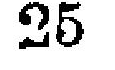25
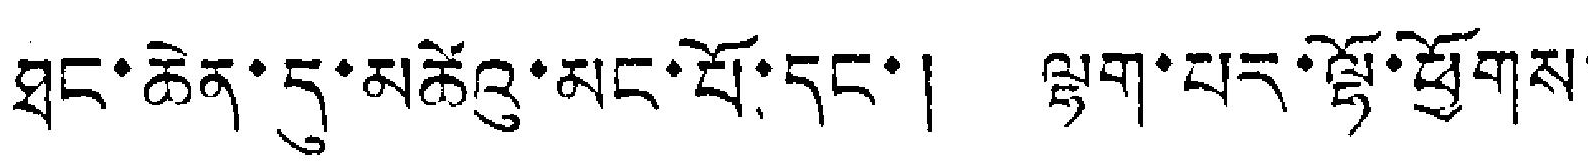ཐང་ཆེན་དུ་མཚེའུ་མང་པོ་དང་། ལྷག་པར་ལྷོ་ཕྱོགས་
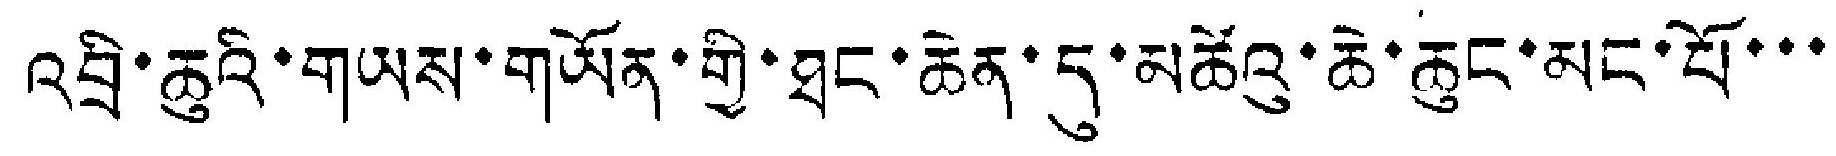འབྲི་ཆུའི་གཡས་གཡོན་གྱི་ཐང་ཆེན་དུ་མཚེའུ་ཆེ་ཆུང་མང་པོ་་་
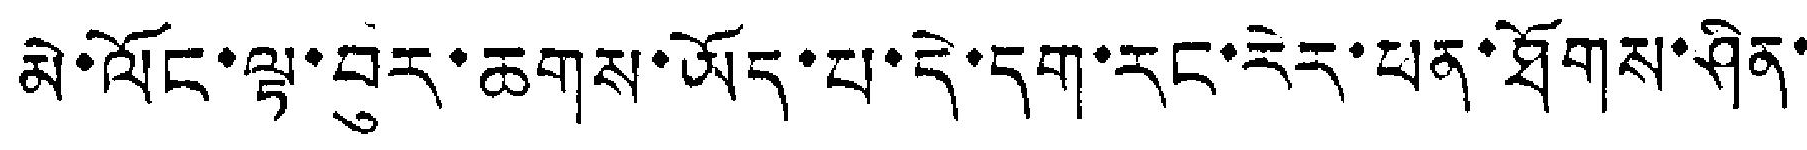མེ་ལོང་ལྟ་བུར་ཆགས་ཡོད་པ་དེ་དག་རང་རེར་ཕན་ཐོགས་ཤིན་
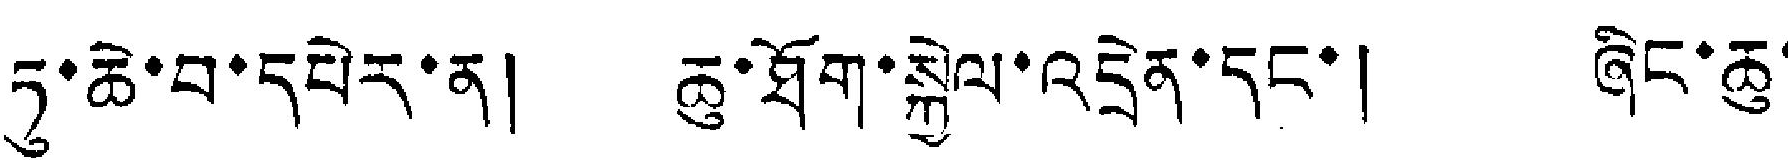ཏུ་ཆེ་བ་དཔེར་ན། ཆུ་ཐོག་སྐྱེལ་འདྲེན་དང་། ཞིང་ཆུ་
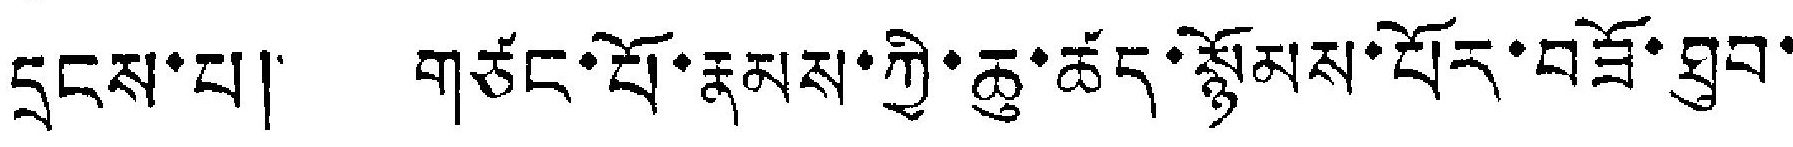དྲངས་པ། གཙང་པོ་རྣམས་ཀྱི་ཆུ་ཚད་སྙོམས་པོར་བཟོ་ཐུབ་
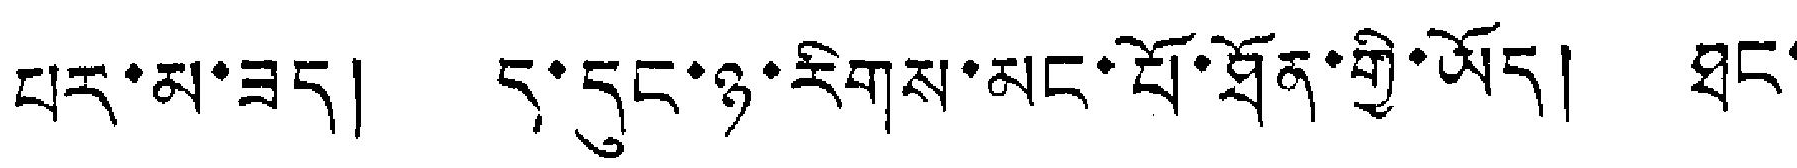པར་མ་ཟད། ད་དུང་ཉ་རིགས་མང་པོ་ཐོན་གྱི་ཡོད། ཐང་
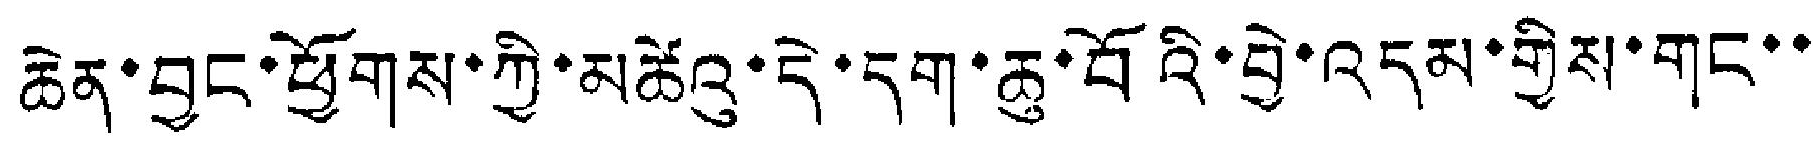ཆེན་བྱང་ཕྱོགས་ཀྱི་མཚེའུ་དེ་དག་ཆུ་བོའི་བྱེ་འདམ་གྱིས་གང་་
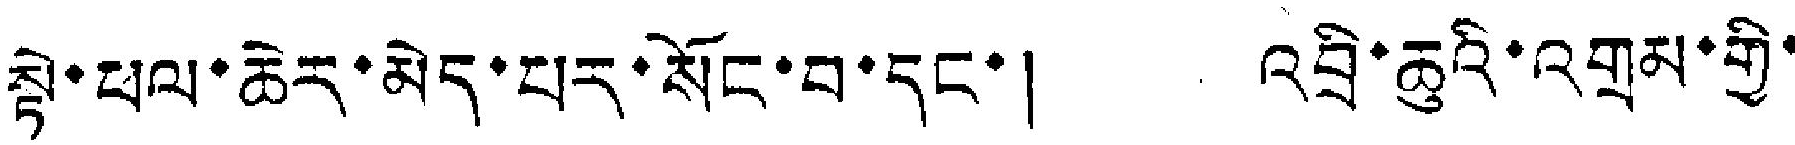སྟེ་ཕལ་ཆེར་མེད་པར་སོང་བ་དང་། འབྲི་ཆུའི་འགྲམ་གྱི་
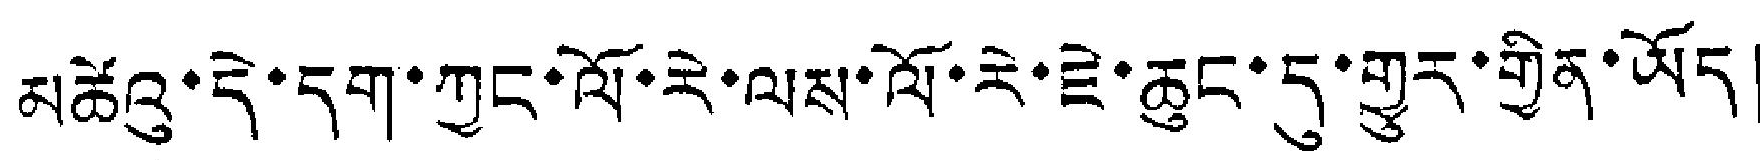མཚེའུ་དེ་དག་ཀྱང་ལོ་རེ་ལས་ལོ་རེ་ཇེ་ཆུང་དུ་གྱུར་གྱིན་ཡོད།
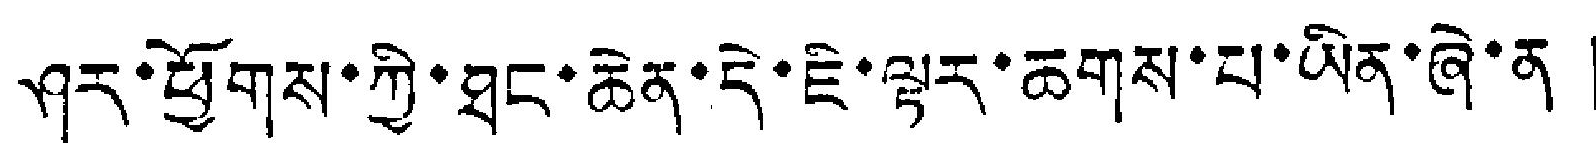ཤར་ཕྱོགས་ཀྱི་ཐང་ཆེན་དེ་ཇི་ལྟར་ཆགས་པ་ཡིན་ཞེ་ན།
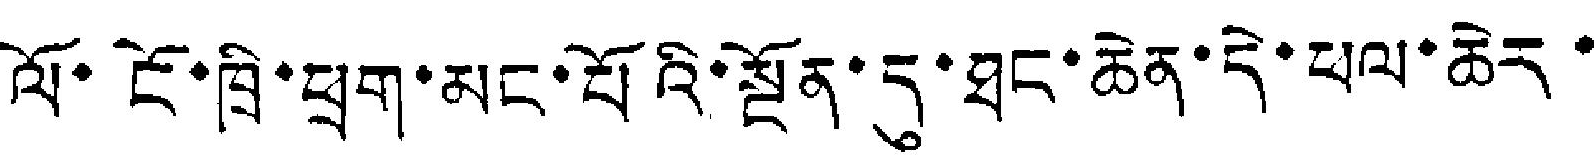ལོ་ངོ་ཁྲི་ཕྲག་མང་པོའི་སྔོན་དུ་ཐང་ཆེན་དེ་ཕལ་ཆེར་
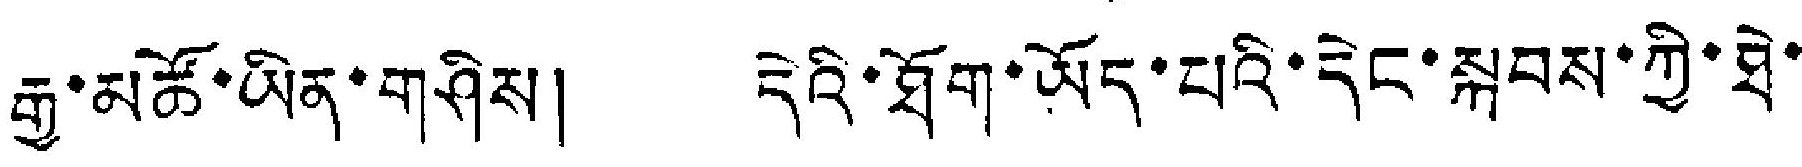རྒྱ་མཚོ་ཡིན་གཤིས། དེའི་ཐོག་ཡོད་པའི་དེང་སྐབས་ཀྱི་ཐེ་
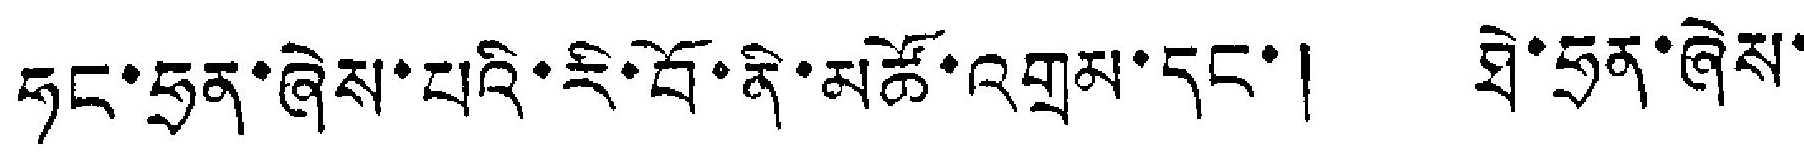ཧང་ཧྲན་ཞེས་པའི་རི་བོ་ནི་མཚོ་འགྲམ་དང་། ཐེ་ཧྲན་ཞེས་
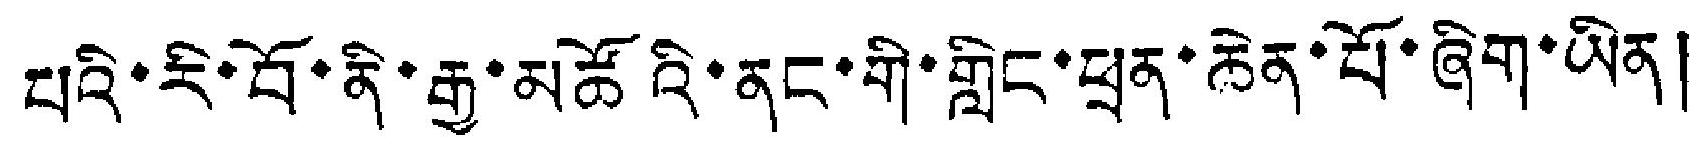པའི་རི་བོ་ནི་རྒྱ་མཚོའི་ནང་གི་གླིང་ཕྲན་ཆེན་པོ་ཞིག་ཡིན།
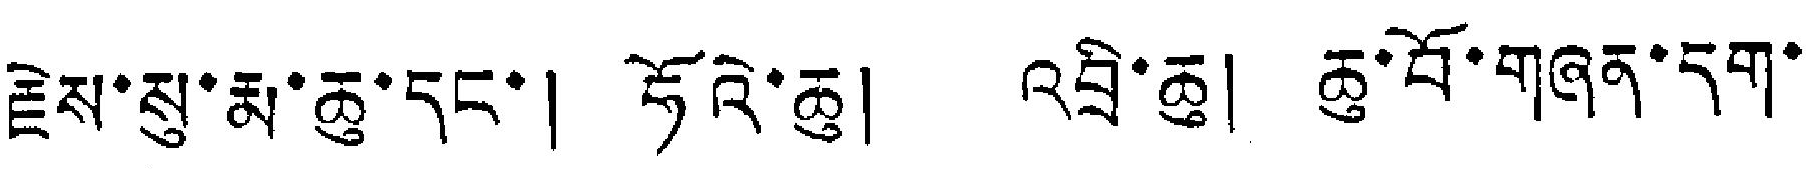རྗེས་སུ་རྨ་ཆུ་དང་། ཧོའེ་ཆུ། འབྲི་ཆུ། ཆུ་བོ་གཞན་དག་
